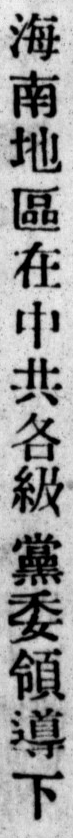海南地區在中共各級黨委領導下
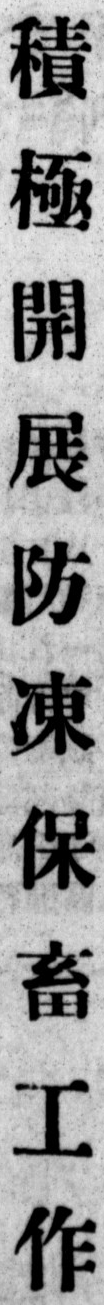積 極 開 展 防 凍 保 畜 工 作
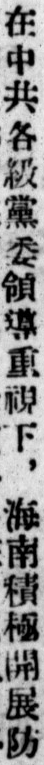在中共各級黨委領導重視下，海南積極開展防
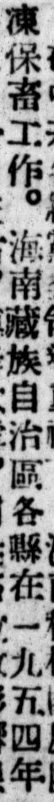凍保畜工作。海南藏族自治區各縣在一九五四年
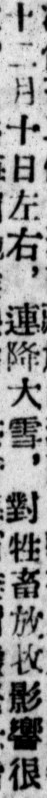十二月十日左右，連降大雪，對牲畜放牧影響很
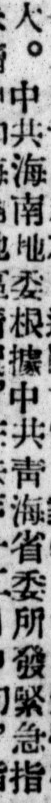大。中共海南地委根據中共靑海省委所發禁忌指
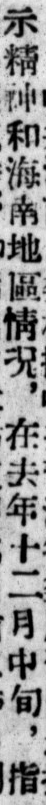示精神和海南地區情況，在去年十二月中旬，指
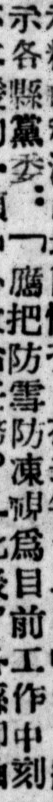示各縣黨委：「應把防雪防凍視爲目前工作中刻
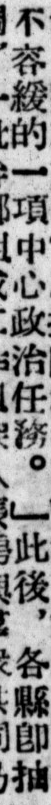不容緩的一項中心政治任務。」此後，各縣卽抽
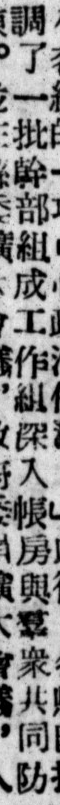調了一批幹部組成工作組深入帳房與羣衆共同防
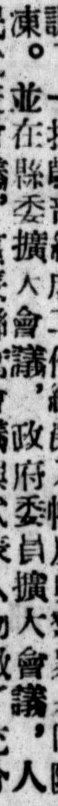凍。並在縣委擴大會議，政府委員擴大會議，人
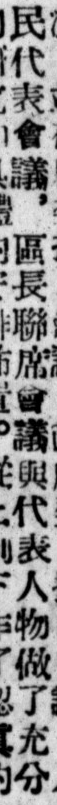民代表會議，區長聯席會議與代表人物作了充分
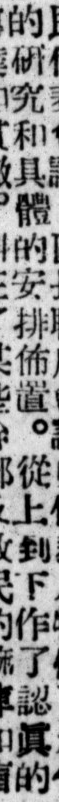的研究和具體的安排佈置。從上到下作了認眞的
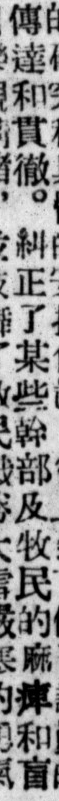傳達和貫徹。糾正了某些幹部及牧民的麻痹和盲
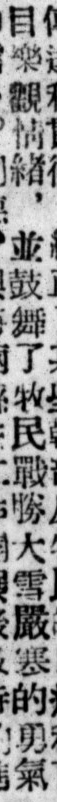目樂觀情緒，並鼓舞了牧民戰勝大雪嚴寒的勇氣
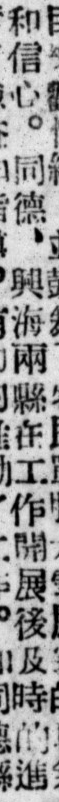和信心。同德、興海兩縣在工作開展後及時的進
